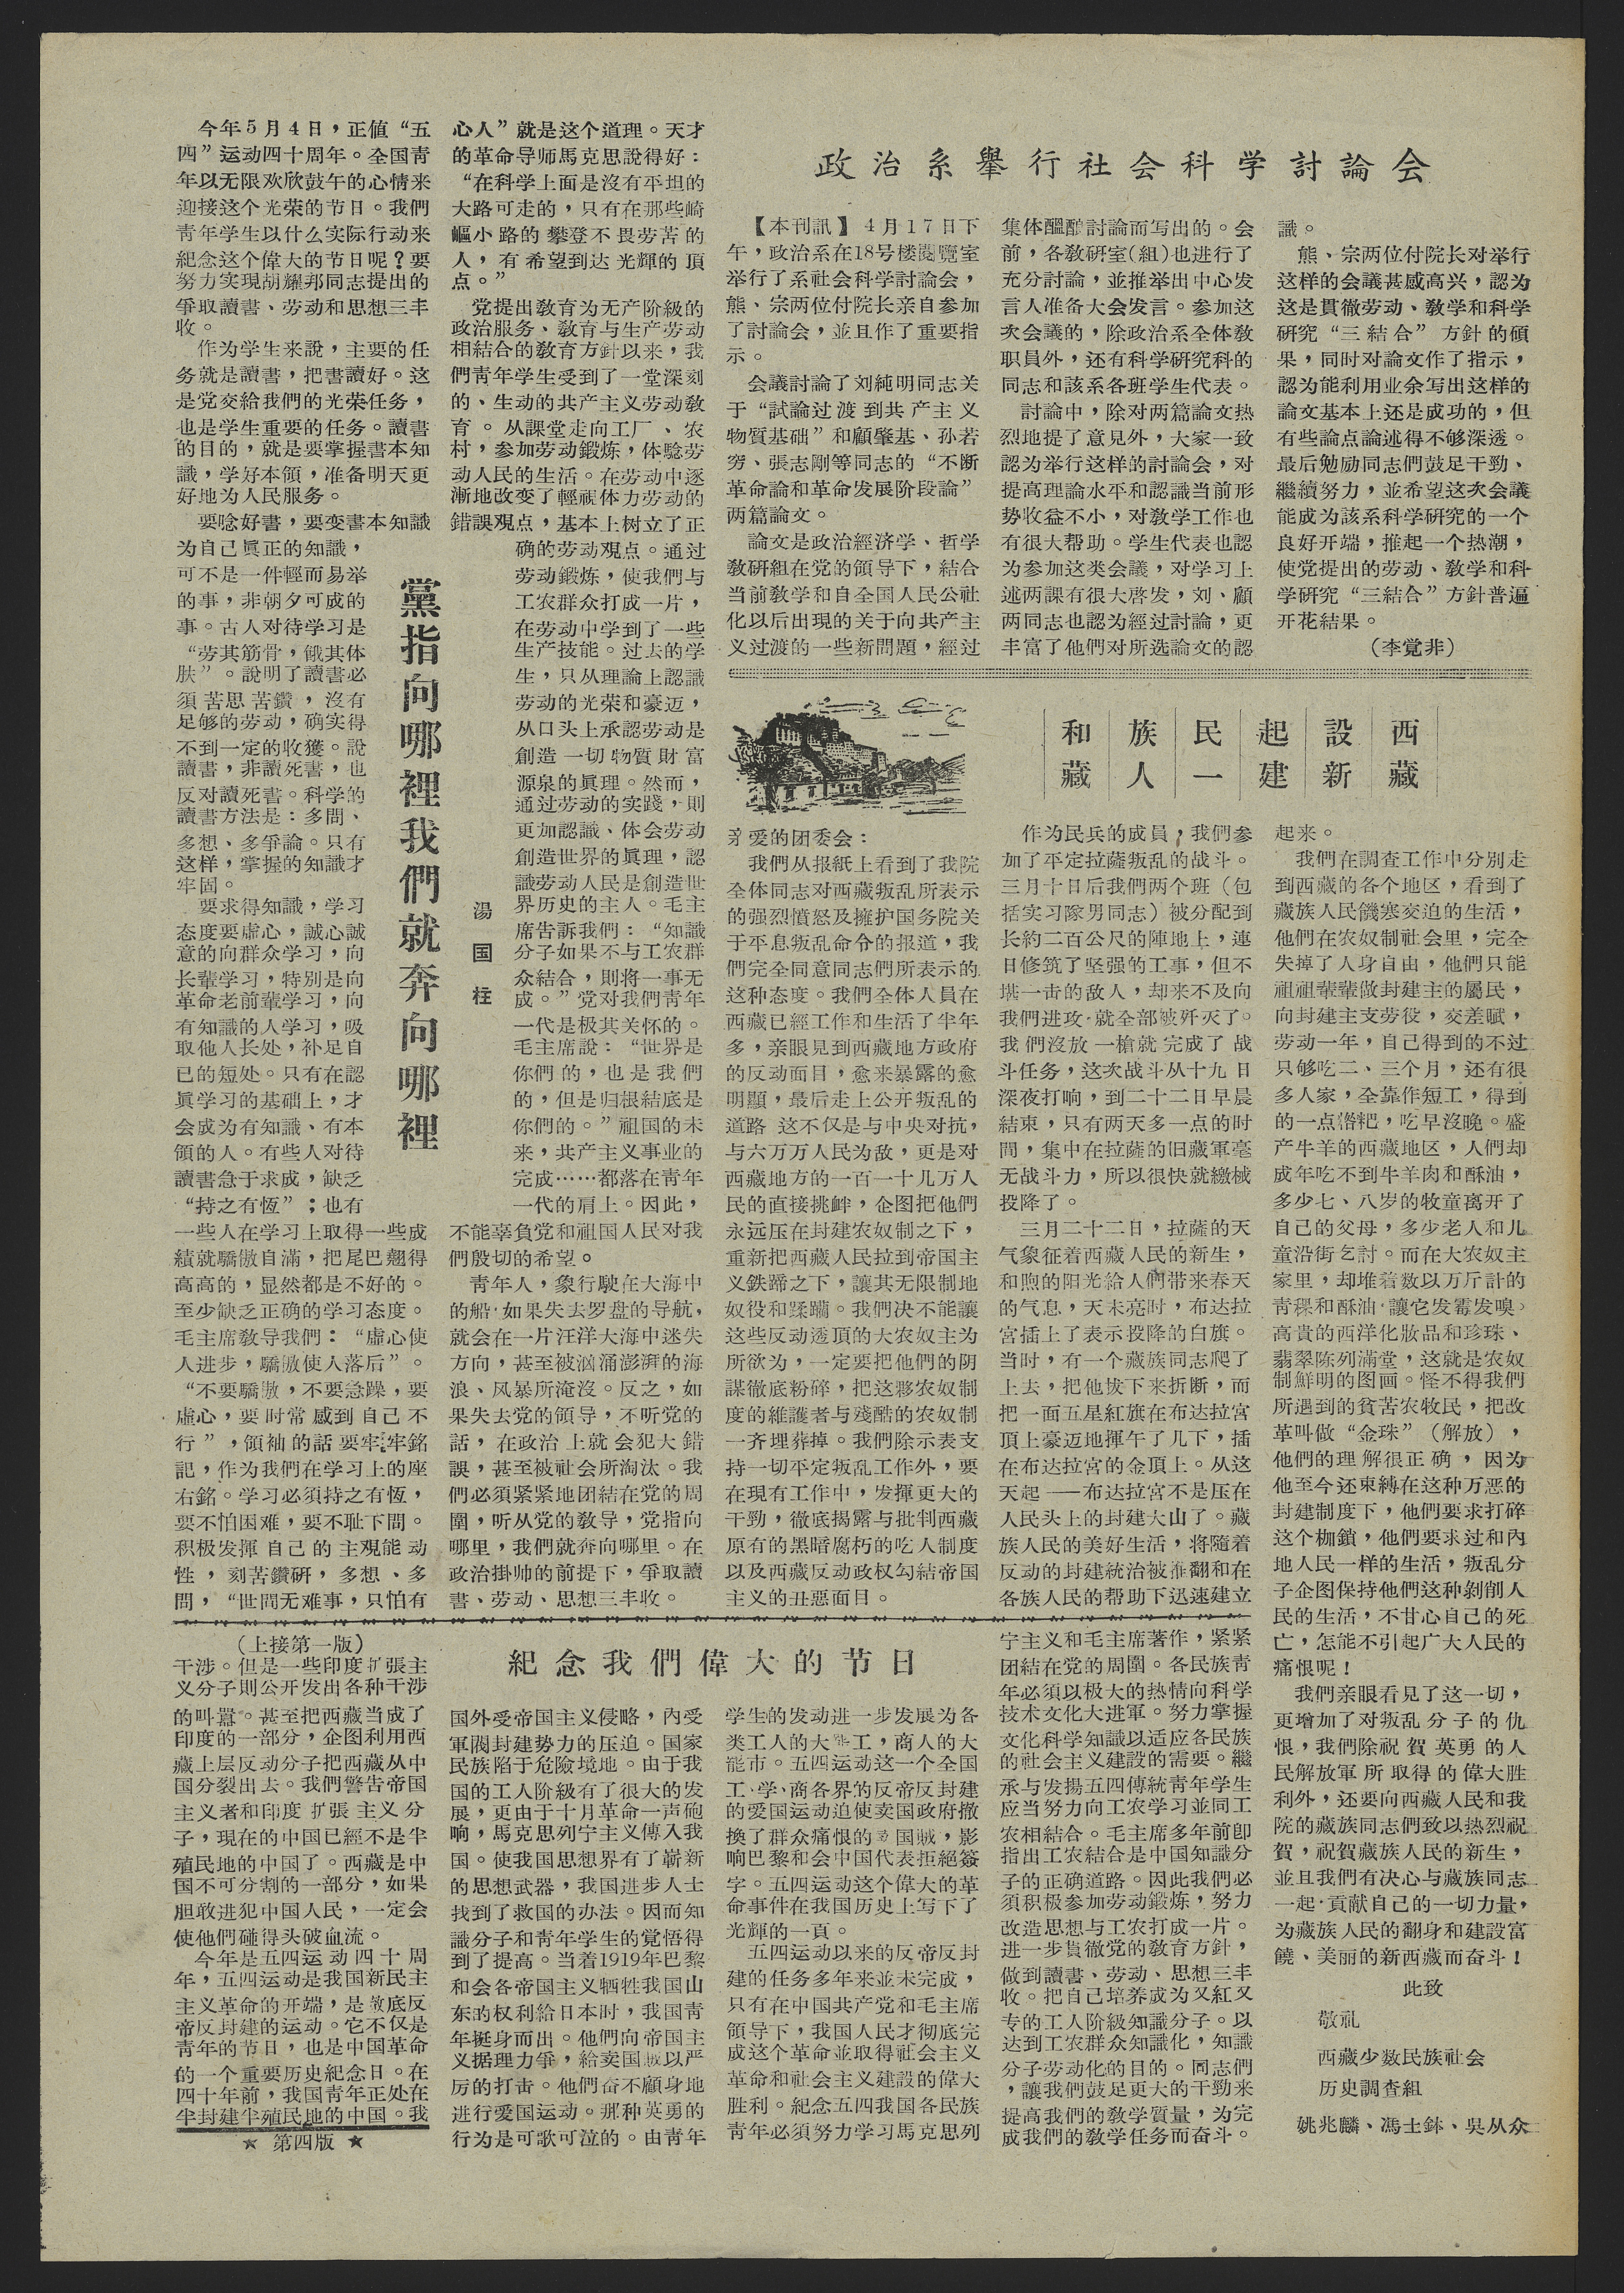黨指向哪裡我們就奔向哪裡
湯国柱
今年5月4日，正值“五
四”运动四十周年。全国靑
年以无限欢欣鼓午的心情来
迎接这个光荣的节日。我們
靑年学生以什么实际行动来
紀念这个偉大的节日呢？要
努力实現胡耀邦同志提出的
爭取讀書、劳动和思想三丰
收。
作为学生來說，主要的任
务就是讀書，把書讀好。这
是党交給我們的光荣任务，
也是学生重要的任务。讀書
的目的，就是要掌握書本知
識，学好本領，准备明天更
好地为人民服务。
要唸好書，要变書本知識
为自己眞正的知識，
可不是一件輕而易举
的事，非朝夕可成的
事。古人对待学习是
“劳其筋骨，餓其体
肤”。說明了讀書必
須苦思苦鑽，沒有
足够的劳动，确实得
不到一定的收穫。說
讀書，非讀死書，也
反对讀死書。科学的
讀書方法是：多問、
多想、多爭論。只有
这样，掌握的知識才
牢固。
要求得知識，学习
态度要虛心，誠心誠
意的向群众学习，向
长輩学习，特别是向
革命老前輩学习，向
有知識的人学习，吸
取他人长处，补足自
己的短处。只有在認
眞学习的基础上，才
会成为有知識、有本
領的人。有些人对待
讀書急于求成，缺乏
“持之有恆”；也有
一些人在学习上取得一些成
績就驕傲自滿，把尾巴翘得
高高的，显然都是不好的。
至少缺乏正确的学习态度。
毛主席敎导我們：“虛心使
人进步，驕傲使人落后”。
“不要驕傲，不要急躁，要
虚心，要时常感到自己不
行”，領袖的話要牢牢銘
記，作为我們在学习上的座
右銘。学习必須持之有恒，
要不怕困难，要不耻下問。
积极发揮自己的主覌能动
性，刻苦鑽研，多想、多
問，“世間无难事，只怕有
心人”就是这个道理。天才
的革命导师馬克思說得好：
“在科学上面是沒有平坦的
大路可走的，只有在那些崎
嶇小路的攀登不畏劳苦的
人，有希望到达光輝的頂
点。”
党提出敎育为无产阶級的
政治服务、敎育与生产劳动
相結合的敎育方針以来，我
們靑年学生受到了一堂深刻
的、生动的共产主义劳动敎
育。从課堂走向工厂、农
村，参加劳动鍛炼，体騐劳
动人民的生活。在劳动中逐
漸地改变了輕視体力劳动的
錯誤覌点，基本上树立了正
确的劳动覌点。通过
劳动鍛炼，使我們与
工农群众打成一片，
在劳动中学到了一些
生产技能。过去的学
省，只从理論上認識
劳动的光荣和豪迈，
从口头上承認劳动是
創造一切物質財富
源泉的眞理。然而，
通过劳动的实踐，則
更加認識、体会劳动
創造世界的眞理，認
識劳动人民是創造世
界历史的主任。毛主
席告訴我們：“知識
分子如果不与工农群
众結合，則將一事无
成。”党对我們靑年
一代是极其关怀的。
毛主席說：“世界是
你們的，也是我們
的，但是归根結底是
你們的。”祖国的未
来，共产主义事业的
完成……都落在靑年
一代的肩上。因此，
不能辜負党和祖国人民对我
們殷切的希望。
靑年人，象行駛在大海中
的船，如果失去罗盘的导航，
就会在一片汪洋大海中迷失
方向，甚至被汹涌澎湃的海
浪、风暴所淹沒。反之，如
果失去党的領导，不听党的
話，在政治上就会犯大錯
誤，甚至被社会所淘汰。我
們必須紧紧地团結在党的周
圍，听从党的敎导，党指向
哪里，我們就奔向哪里。在
政治掛帅的前提下，爭取讀
書、劳动、思想三丰收。
政 治 系 舉 行 社 会 科 学 討 論 会
【本刊訊】4月17日下
午，政治系在18号楼閱覽室
举行了系社会科学討論会，
熊、宗两位付院长亲自参加
了討論会，並且作了重要指
示。
会議討論了刘純明同志关
于“試論过渡到共产主义
物質基础”和顧肇基、孙若
穷、張志剛等同志的“不断
革命論和革命发展阶段論”
两篇論文。
論文是政治經济学、哲学
敎研組在党領导下，結合
当前敎学和自全国人民公社
化以后出現的关于向共产主
义过渡的一些新問題，經过
集体醞酿討論而写出的。会
前，各敎研室（組）也进行了
充分討論，並推举出中心发
言人准备大会发言。参加这
次会議的，除政治系全体敎
职員外，还有科学研究科的
同志和該系各班学生代表。
討論中，除对两篇論文热
烈地提了意見外，大家一致
認为举行这样的討論会，对
提高理論水平和認識当前形
势收益不小，对敎学工作也
有很大帮助。学生代表也認
为参加这类会議，对学习上
述两課有很大啓发，刘、顧
两同志也認为經过討論，更
丰富了他們对所选論文的認
識。
熊、宗两位付院长对举行
这样的会議甚感高兴，認为
这是貫徹劳动、敎学和科学
研究“三結合”方針的碩
果，同时对論文作了指示，
認为能利用业余写出这样的
論文基本上还是成功的，但
有些論点論述得不够深透。
最后勉励同志們鼓足干勁、
繼續努力，並希望这次会議
能成为該系科学研究的一个
良好开端，推起一个热潮，
使党提出的劳动、敎学和科
学研究“三結合”方針普遍
开花結果。
（李覚非）
和藏
族人
民一
起建
設新
西藏
亲爱的团委会：
我們从报紙上看到了我院
全体同志对西藏叛乱所表示
的强烈憤怒及擁护国务院关
于平息叛乱命令的报道，我
們完全同意同志們所表示的
这种态度。我們全体人員在
西藏已經工作和生活了半年
多，亲眼見到西藏地方政府
的反动面目，愈來暴露的愈
明顯，最后走上公开叛乱的
道路 这不仅是与中央对抗，
与六万万人民为敌，更是对
西藏地方的一百一十几万人
民的直接挑衅，企图把他們
永远压在封建农奴制之下，
重新把西藏人民拉到帝国主
义鉄蹄之下，讓其无限制地
奴役和蹂躪。我們决不能讓
这些反动透頂的大农奴主为
所欲为，一定要把他們的阴
謀徹底粉碎，把这夥农奴制
度的維護者与殘酷的农奴制
一齐埋葬掉。我們除示表支
持一切平定叛乱工作外，要
在現有工作中，发揮更大的
干勁，徹底揭露与批判西藏
原有的黑暗腐朽的吃人制度
以及西藏反动政权勾結帝国
主义的丑惡面目。
作为民兵的成員，我們参
加了平定拉薩叛乱的战斗。
三月十日后我們两个班（包
括实习隊男同志）被分配到
长約二百公尺的陣地上，連
日修筑了坚强的工事，但不
堪一击的敌人，却来不及向
我們进攻，就全部歼灭了。
我們沒放一槍就完成了战
斗任务，这次战斗从十九日
深夜打响，到二十二日早晨
結束，只有两天多一点的时
間，集中在拉薩的旧藏軍毫
无战斗力，所以很快就繳械
投降了。
三月二十二日，拉薩的天
气象征着西藏人民的新生，
和煦的阳光給人們带来春天
的气息，天未亮时，布达拉
宫插上了表示投降的白旗。
当时，有一个藏族同志爬了
上去，把他拔下来折断，而
把一面五星紅旗在布达拉宫
頂上豪迈地揮午了几下，插
在布达拉宫的金頂上。从这
天起——布达拉宫不是压在
人民头上的封建大山了。藏
组人民的美好生活，將隨着
反动的封建統治被推翻和在
各族人民的帮助下迅速建立
起来。
我們在調查工作中分別走
到西藏的各个地区，看到了
藏族人民饑寒交迫的生活，
他們在农奴制社会里，完全
失掉了人身自由，他們只能
祖祖輩輩做封建主的屬民，
向封建主支劳役，交差賦，
劳动一年，自己得到的不过
足够吃二、三个月，还有很
多人家，全靠作短工，得到
的一点糌粑，吃早沒晚。盛
产牛羊的西藏地区，人們却
成年吃不到牛羊肉和酥油，
多少七、八岁的牧童离开了
自己的父母，多少老人和儿
童沿街乞討。而在大农奴主
家里，却堆着数以万斤計的
靑稞和酥油，讓它发霉发嗅。
高貴的西洋化妆品和珍珠、
翡翠陈列滿堂，这就是农奴
制鮮明的图画。怪不得我們
所遇到的貧苦农牧民，把改
革叫做“金珠”（解放），
他們的理解很正确，因为
他至今还束縛在这种万恶的
封建制度下，他們要求打碎
这个枷鎖，他們要求过和内
地人民一样的生活，叛乱分
自企图保持他們这种剝削人
民的生活，不甘心自己的死
亡，怎能不引起广大人民的
痛恨呢！
我們亲眼看见了这一切，
更增加了对叛乱分子的仇
恨，我們除祝賀英勇的人
民解放軍所取得的偉大胜
利外，还要向西藏人民和我
院的藏族同志們致以热烈祝
賀，祝賀藏族人民的新生，
並且我們有决心与藏族同志
一起，貢献自己的一切力量，
为藏族人民的翻身和建設富
饒、梅列的新西藏而奋斗！
此致
敬礼
西藏少数民族社会
历史調查組
姚兆麟、馮士鉢、吳从众
紀 念 我 們 偉 大 的 节 日
上接第一版
干涉。但是一些印度扩張主
义分子則公开发出各种干涉
的叫囂。甚至把西藏当成了
印度的一部分，企图利用西
藏上层反动分子把西藏从中
国分裂出去。我們警告帝国
主义者和印度扩張主义分
子，現在的中国已經不是半
殖民地的中国了。西藏是中
国不可分割的一部分，如果
胆敢进犯中国人民，一定会
使他們碰得头破血流。
今年是五四运动四十周
年，五四运动是我国新民主
主义革命的开端，是徹底反
帝反封建的运动。它不仅是
靑年的节日，也是中国革命
的一个重要历史紀念日。在
四十年前，我国靑年正处在
半封建半殖民地的中国。我
国外受帝国主义侵略，內受
軍閥封建势力的压迫。国家
民族陷于危險境地。由于我
国的工人阶級有了很大的发
展，更由于十月革命一声砲
响，馬克思列宁主义傳入我
国。使我国思想界有了嶄新
的思想武器，我国进步人士
找到了救国的办法。因而知
識分子和靑年学生的覚悟得
到了提高。当着1919年巴黎
和会各帝国主义牺牲我国山
东的权利給日本时，我国靑
年挺身而出。他們向帝国主
义据理力爭，給卖国賊以严
厉的打击。他們奋不顧身地
进行爱国运动。那种英勇的
行为是可歌可泣的。由靑年
学生的发动进一步发展为各
类工人的大罷工，商人的大
罷市。五四运动这一个全国
工、学、商各界的反帝反封建
的爱国运动迫使卖国政府撤
換了群众痛恨的卖国賊，影
响巴黎和会中国代表拒絕簽
字。五四运动这个偉大的革
命事件在我国历史上写下了
光輝的一頁。
五四运动以来的反帝反封
建的任务多年来並未完成，
只有在中国共产党和毛主席
領导下，我国人民才彻底完
成这个革命並取得社会主义
革命和社会主义建設的偉大
胜利。紀念五四我国各民族
靑年必須努力学习馬克思列
宁主义和毛主席著作，紧紧
团結在党的周圍。各民族靑
年必須以极大的热情向科学
技术文化大进軍。努力掌握
文化科学知識以适应各民族
的社会主义建設的需要。繼
承与发揚五四傳統靑年学生
应当努力向工农学习並同工
农相結合。毛主席多年前卽
指出工农結合是中国知識分
子的正确道路。因此我們必
須积极参加劳动鍛炼，努力
改造思想与工农打成一片。
进一步貫徹党的敎育方針，
做到讀書、劳动、思想三丰
收。把自己培养成为又紅又
专的工人阶級知識分子。以
达到工农群众知識化，知識
分子劳动化的目的。同志們
，讓我們鼓足更大的干勁来
提高我們的敎学質量，为完
成我們的敎学任务而奋斗。
★ 第四版 ★
